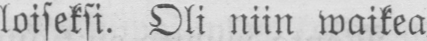loiseksi. Oli niin waikea
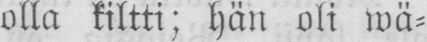olla kiltti; hän oli wä-
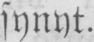synyt.
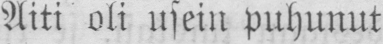Äiti oli usein puhunut
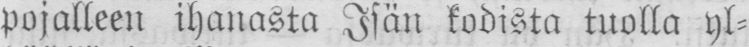pojalleen ihanasta Isän kodista tuolla yl-
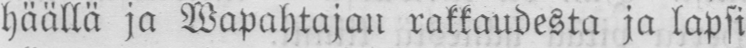häällä ja Wapahtajan rakkaudesta ja lapsi
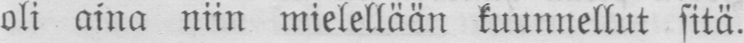oli aina niin mielellään kuunnellut sitä.
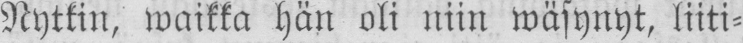Nytkin, waikka hän oli niin wäsynyt, liiti-
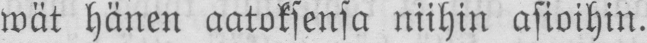wät hänen aatoksensa niihin asioihin.
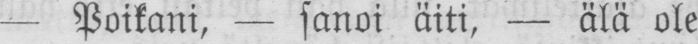— Poikani, — sanoi äiti, — älä ole
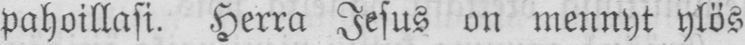pahoillasi. Herra Jesus on mennyt ylös
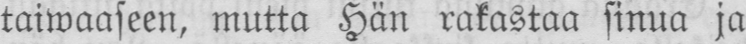taiwaaseen, mutta Hän rakastaa sinua ja
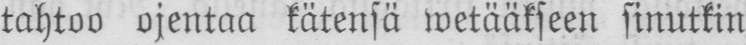tahtoo ojentaa kätensä wetääkseen sinutkin
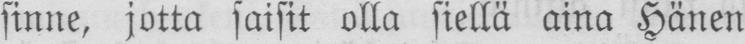sinne, jotta saisit olla siellä aina Hänen
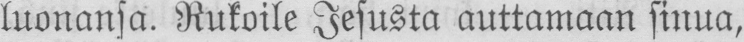luonansa. Rukoile Jesusta auttamaan sinua,
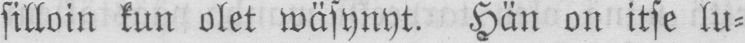silloin kun olet wäsynyt. Hän on itse lu-
